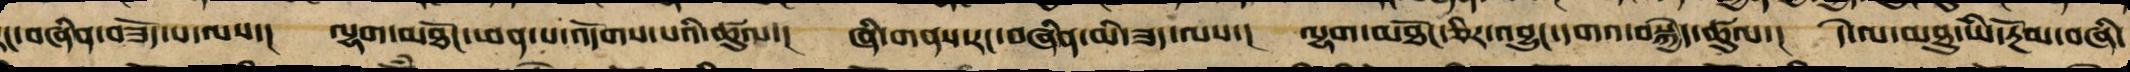རང་བཞིན་བཟོད་པ་ལས་། ལྷག་མཐོང་ཕན་པ་འདོགས་པའི་ཚུལ་། ཞི་གནས་རང་བཞིན་མི་ཟད་ལས་། ལྷག་མཐོང་ཅིར་འབྱུང་དགའ་བསྐྱེད་ཚུལ་། དེ་ལ་མཐུ་ཡི་རྔོམ་བཞི་
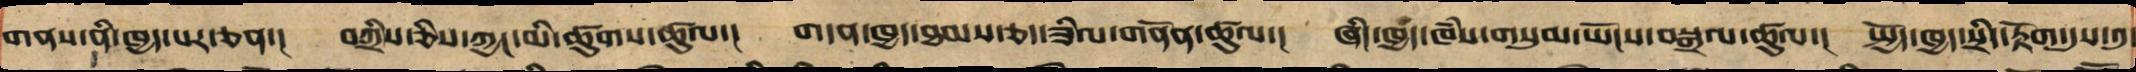གནས་ནི་ཁྱད་པར་ཅན་།།བཀྲིས་ཅིས་ཀྱང་མི་ཚུགས་ཚུལ་། གདན་ཁྱད་ཐམས་ཅད་ཟིལ་གནོན་ཚུལ་། ཞིང་ཁྱད་ཁཾས་གསུམ་ཡོངས་བསྒྲལ་ཚུལ་། སྤྱོད་ཁྱད་སྲིད་རྟོག་དུས་༡
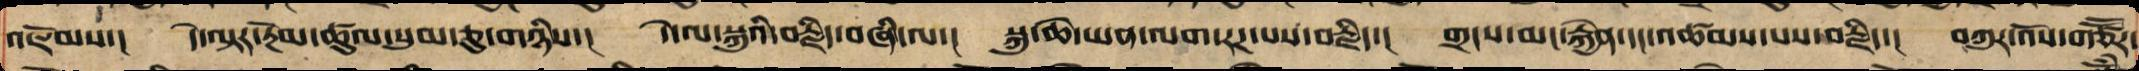འཇོམས་། དེ་ལྟར་རྔོམ་ཚུལ་སུམ་ཅུ་གཉིས་། དེ་ལ་སྐུ་ཡི་བརྗིད་བཞི་ལ་། སྐུ་ཆེ་ཡན་ལག་རཌ་པས་བརྗིད་། གྲངས་མང་རྐྱེན་དང་འཚམས་པས་བརྗིད།་ །བཀུར་འོས་གཙཽར་
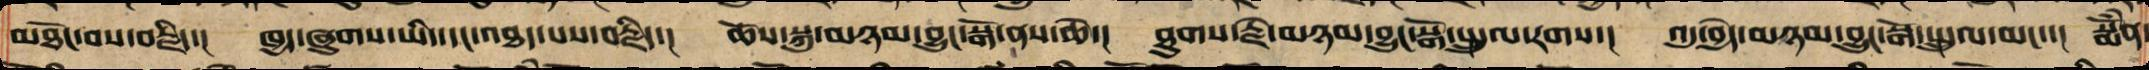མཐོང་བས་བརྗིད་། ཁྱད་ཞུགས་ཡིད་དང་འཐད་པས་བརྗིད་། ཆོས་སྐུ་མཉམ་བྱུང་སྒོ་ནས་ཆེ་། ཐུགས་རྗེ་མཉམ་བྱུང་སྒོ་སྤྲུལ་རགས་། འདུ་བྱེད་མཉམ་བྱུང་སྒོ་སྤྲུལ་མང་། སྨོཾན་
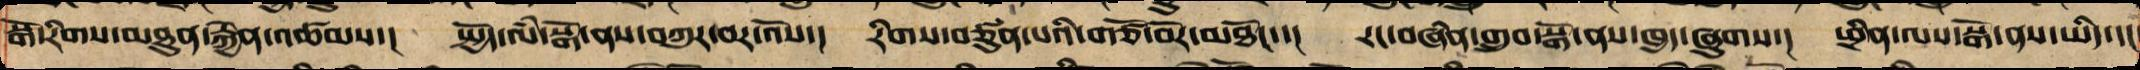སྒོ་རིགས་མཐུན་རྐྱེན་འཚམས་། སྤྱོད་ལཾ་སྒོ་ནས་བཀུར་བར་འོས་། རིགས་བཙུན་པའི་གཙོ་བོར་མཐོང་་། རང་བཞིན་གྲུབ་སྒོ་ནས་ཁྱད་ཞུགས་། ཕྲིན་ལས་སྒོ་ནས་ཡིད་དང
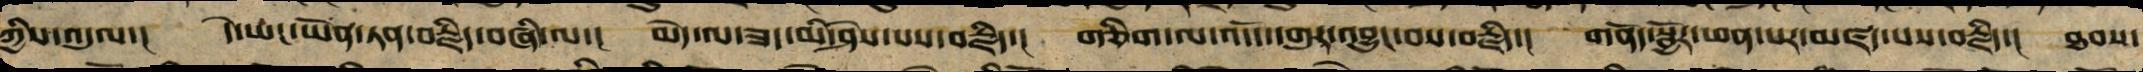ཀྱིས་འདུལ་།  དེ་ཡང་ཡོན་ཏན་བརྗིད་བཞི་ལ་།  མེད་ལ་ཟད་མི་ཤེས་པས་བརྗིད་།  གཅིག་ལས་འདོད་དགུར་འབྱུང་བས་བརྗིད་།  གནོད་སྦྱོར་ཕན་པར་མཛད་པས་བརྗིད་།  ཐབས་
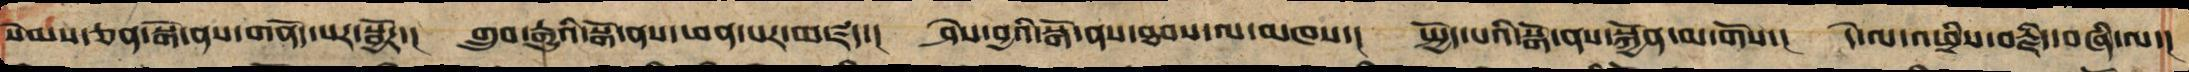སེམས་ཅན་སྒོ་ནས་གནོད་པར་སྦྱོར་། གྲུབ་རྒྱུའི་སྒོ་ནས་ཕན་པར་མཛད་། ཤེས་བྱའི་སྒོ་ནས་ཐབས་ལ་མཁས་། སྤྱོད་པའི་སྒོ་ནས་སྐྱོན་མ་གོས་། དེ་ལ་འཕྲིན་ལས་བརྗིད་བཞི་ལ་།
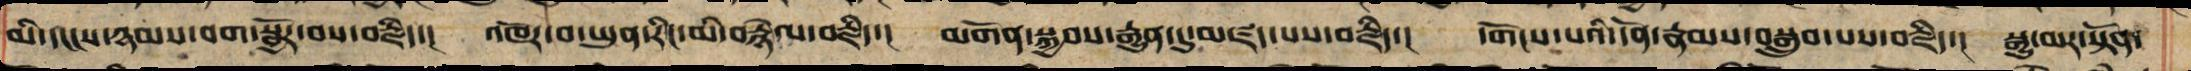མི་དངངས་ཉམས་བག་ཆེ་བས་བརྗིད་། འཁོར་བ་ཡུན་རིང་མི་བསྙེལ་བརྗིད་། མགོན་སྐྱབས་རྒྱུན་དུ་མཛད་པས་བརྗིད་། དགོངས་པའི་དོན་རྣམས་བསྒྲུབས་པས་བརྗིད་། སྒྱུ་མར་སྟོན་
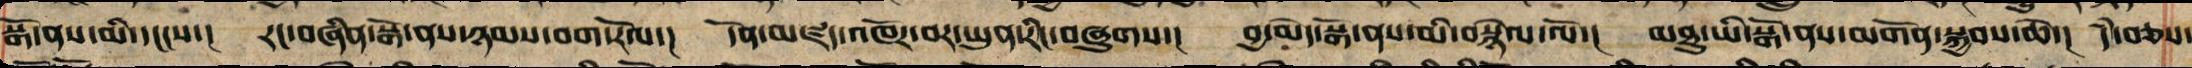སྒོ་ནས་མི་དངངས་། རང་བཞིན་སྒོ་ནས་ཉམས་བག་རོལ་། དོན་མཛད་འཁོར་བར་ཡུན་རིང་བཞུགས་། བྱ་མེད་སྒོ་ནས་མི་བསྙེལ་ལ་། མཐུ་ཡི་སྒོ་ནས་མགོན་སྐྱབས་ཆེ་། དཾ་བཅས་
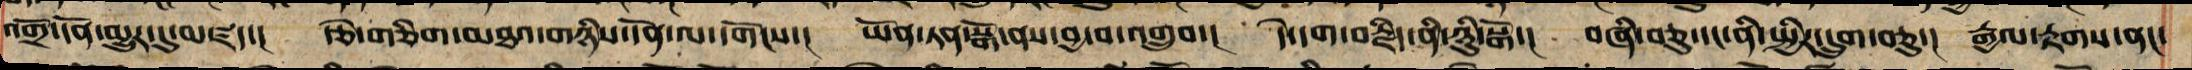འགྲོ་དོན་མྱུར་དུ་མཛད་། རྩེ་གཅིག་མཐའ་གཉིས་དོན་ལ་དགོངས་། ཡོན་ཏན་སྒོ་ནས་བྱ་བ་འགྲུབ་། དེ་དག་བརྗིད་ནི་ཉིུ་སྒོ་། བཞི་བཅུ་དང་ནི་སྤྱིར་དྲུག་ཅུ་། རྒྱལ་རྟགས་ནང་
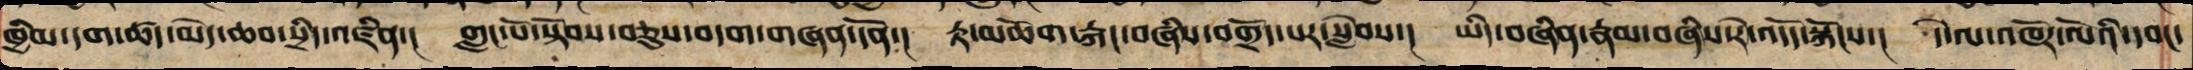ཁྱིམ་བདག་ཚད་མེད་ཆབ་སྲིད་འཛིན་། གླང་པོ་སྟོབས་བཅུས་བདག་གཞན་དོན་། རྟ་མཆོག་རྐང་བཞིས་བགྲོད་པར་སླེབ་། ཡིད་བཞིན་རྣམ་བཞིས་རེ་འདོད་སྐོང་། དེ་ལ་འཁོར་ལོའི་དབང་
